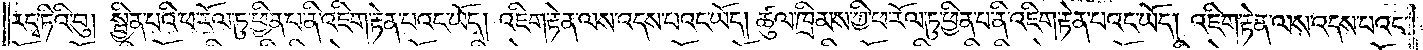ར་དྭ་ཏིའི་བུ། སྦྱིན་པའི་ཕ་རོལ་ཏུ་ཕྱིན་པ་ནི་འཇིག་རྟེན་པའང་ཡོད། འཇིག་རྟེན་ལས་འདས་པའང་ཡོད། ཚུལ་ཁྲིམས་ཀྱི་ཕ་རོལ་ཏུ་ཕྱིན་པ་ནི་འཇིག་རྟེན་པའང་ཡོད། འཇིག་རྟེན་ལས་འདས་པའང་
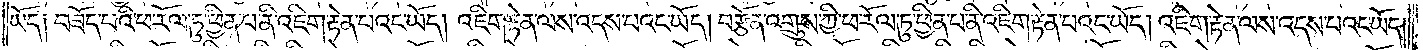ཡོད། བཟོད་པའི་ཕ་རོལ་ཏུ་ཕྱིན་པ་ནི་འཇིག་རྟེན་པའང་ཡོད། འཇིག་རྟེན་ལས་འདས་པའང་ཡོད། བརྩོན་འགྲུས་ཀྱི་ཕ་རོལ་ཏུ་ཕྱིན་པ་ནི་འཇིག་རྟེན་པའང་ཡོད། འཇིག་རྟེན་ལས་འདས་པའང་ཡོད།
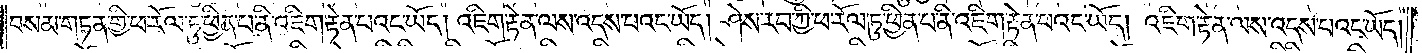བསམ་གཏན་གྱི་ཕ་རོལ་ཏུ་ཕྱིན་པ་ནི་འཇིག་རྟེན་པའང་ཡོད། འཇིག་རྟེན་ལས་འདས་པའང་ཡོད། ཤེས་རབ་ཀྱི་ཕ་རོལ་ཏུ་ཕྱིན་པ་ནི་འཇིག་རྟེན་པའང་ཡོད། འཇིག་རྟེན་ལས་འདས་པའང་ཡོད།
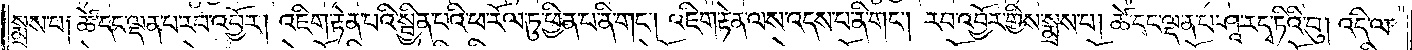སྨྲས་པ། ཚེ་དང་ལྡན་པ་རབ་འབྱོར། འཇིག་རྟེན་པའི་སྦྱིན་པའི་ཕ་རོལ་ཏུ་ཕྱིན་པ་ནི་གང༌། འཇིག་རྟེན་ལས་འདས་པ་ནི་གང༌། རབ་འབྱོར་གྱིས་སྨྲས་པ། ཚེ་དང་ལྡན་པ་ཤཱ་ར་དྭ་ཏིའི་བུ། འདི་ལ་
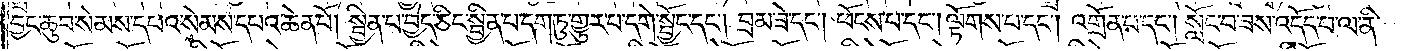བྱང་ཆུབ་སེམས་དཔའ་སེམས་དཔའ་ཆེན་པོ། སྦྱིན་པ་བྱེད་ཅིང་སྦྱིན་བདག་ཏུ་གྱུར་པ་དགེ་སྦྱོང་དང༌། བྲམ་ཟེ་དང༌། ཕོངས་པ་དང༌། ལྟོགས་པ་དང༌། འགྲོན་པ་དང༌། སློང་བ་ཟས་འདོད་པ་ལ་ནི་
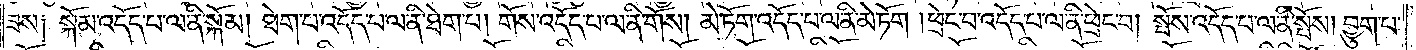ཟས༏ སྐོམ་འདོད་པ་ལ་ནི་སྐོམ། ཐེག་པ་འདོད་པ་ལ་ནི་ཐེག་པ། གོས་འདོད་པ་ལ་ནི་གོས། མེ་ཏོག་འདོད་པ་ལ་ནི་མེ་ཏོག །ཕྲེང་བ་འདོད་པ་ལ་ནི་ཕྲེང་བ། སྤོས་འདོད་པ་ལ་ནི་སྤོས། བྱུག་པ་
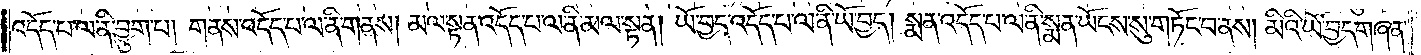འདོད་པ་ལ་ནི་བྱུག་པ། གནས་འདོད་པ་ལ་ནི་གནས། མལ་སྟན་འདོད་པ་ལ་ནི་མལ་སྟན། ཡོ་བྱད་འདོད་པ་ལ་ནི་ཡོ་བྱད། སྨན་འདོད་པ་ལ་ནི་སྨན་ཡོངས་སུ་གཏོང་བ་ནས། མིའི་ཡོ་བྱད་གཞན་
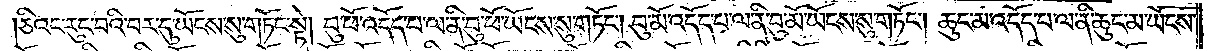ཅིའང་རུང་བའི་བར་དུ་ཡོངས་སུ་གཏོང་སྟེ། བུ་ཕོ་འདོད་པ་ལ་ནི་བུ་ཕོ་ཡོངས་སུ་གཏོང༌། བུ་མོ་འདོད་པ་ལ་ནི་བུ་མོ་ཡོངས་སུ་གཏོང༌། ཆུང་མ་འདོད་པ་ལ་ནི་ཆུང་མ་ཡོངས་
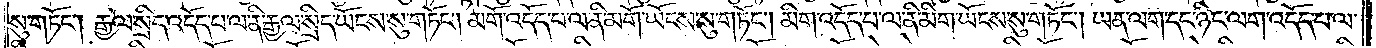སུ་གཏོང༌། རྒྱལ་སྲིད་འདོད་པ་ལ་ནི་རྒྱལ་སྲིད་ཡོངས་སུ་གཏོང༌། །མགོ་འདོད་པ་ལ་ནི་མགོ་ཡོངས་སུ་གཏོང༌། མིག་འདོད་པ་ལ་ནི་མིག་ཡོངས་སུ་གཏོང༌། ཡན་ལག་དང་ཉིང་ལག་འདོད་པ་ལ་
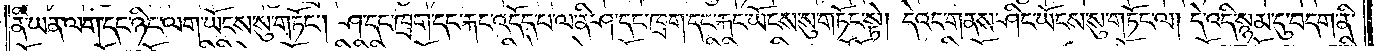ནི་ཡན་ལག་དང་ཉིང་ལག་ཡོངས་སུ་གཏོང༌། ཤ་དང་ཁྲག་དང་རྐང་འདོད་པ་ལ་ནི་ཤ་དང་ཁྲག་དང་རྐང་ཡོངས་སུ་གཏོང་སྟེ། དེའང་གནས་ཤིང་ཡོངས་སུ་གཏོང་ལ། དེ་འདི་སྙམ་དུ་བདག་ནི་
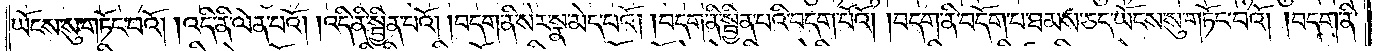ཡོངས་སུ་གཏོང་བའོ། །འདི་ནི་ལེན་པའོ། །འདི་ནི་སྦྱིན་པའོ། །བདག་ནི་སེར་སྣ་མེད་པའོ། །བདག་ནི་སྦྱིན་པའི་བདག་པོའོ། །བདག་ནི་བདོག་པ་ཐམས་ཅད་ཡོངས་སུ་གཏོང་བའོ། །བདག་ནི་
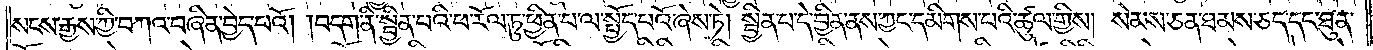སངས་རྒྱས་ཀྱི་བཀའ་བཞིན་བྱེད་པའོ། །བདག་ནི་སྦྱིན་པའི་ཕ་རོལ་ཏུ་ཕྱིན་པ་ལ་སྤྱོད་པའོ་ཞེས་ཏེ། སྦྱིན་པ་དེ་བྱིན་ནས་ཀྱང་དམིགས་པའི་ཚུལ་གྱིས། སེམས་ཅན་ཐམས་ཅད་དང་ཐུན་
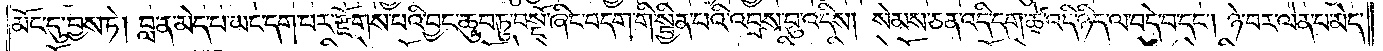མོང་དུ་བྱས་ཏེ། བླ་ན་མེད་པ་ཡང་དག་པར་རྫོགས་པའི་བྱང་ཆུབ་ཏུ་བསྔོ་ཞིང་བདག་གི་སྦྱིན་པའི་འབྲས་བུ་འདིས། སེམས་ཅན་འདི་དག་ཚེ་འདི་ཉིད་ལ་བདེ་བ་དང༌། ཉེ་བར་ལེན་པ་མེད་
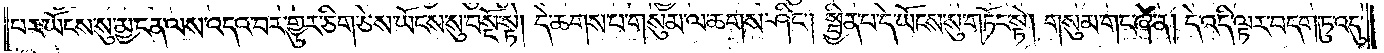པར་ཡོངས་སུ་མྱ་ངན་ལས་འདའ་བར་གྱུར་ཅིག་ཅེས་ཡོངས་སུ་བསྔོ་སྟེ། དེ་ཆགས་པ་གསུམ་ལ་ཆགས་ཤིང༌། སྦྱིན་པ་དེ་ཡོངས་སུ་གཏོང་སྟེ། གསུམ་གང་ཞེ་ན། དེ་འདི་ལྟར་བདག་ཏུ་འདུ་
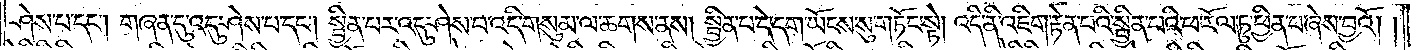ཤེས་པ་དང༌། གཞན་དུ་འདུ་ཤེས་པ་དང༌། སྦྱིན་པར་འདུ་ཤེས་པ་འདི་གསུམ་ལ་ཆགས་ནས། སྦྱིན་པ་དེ་དག་ཡོངས་སུ་གཏོང་སྟེ། འདི་ནི་འཇིག་རྟེན་པའི་སྦྱིན་པའི་ཕ་རོལ་ཏུ་ཕྱིན་པ་ཞེས་བྱའོ། །
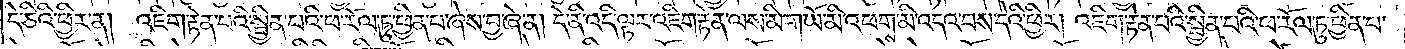དེ་ཅིའི་ཕྱིར་ཞེ་ན། འཇིག་རྟེན་པའི་སྦྱིན་པའི་ཕ་རོལ་ཏུ་ཕྱིན་པ་ཞེས་བྱ་ཞེ་ན། དེ་ནི་འདི་ལྟར་འཇིག་རྟེན་ལས་མི་གཡོ་མི་འཕགས་མི་འདའ་བས་དེའི་ཕྱིར། འཇིག་རྟེན་པའི་སྦྱིན་པའི་ཕ་རོལ་ཏུ་ཕྱིན་པ་
